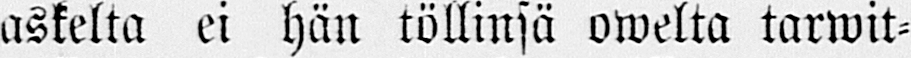askelta ei hän köliinsä owelta tarwit-
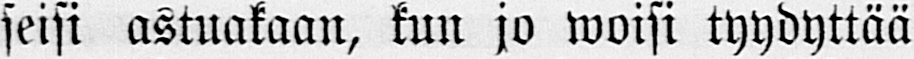seisi astuakaan, kun jo woisi tyydyttää
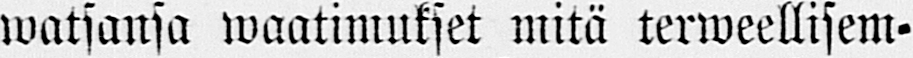watsansa waatimukset mitä terweellisem-
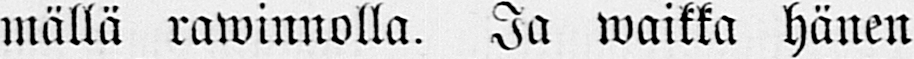mällä rawinnolla. Ja waikka hänen
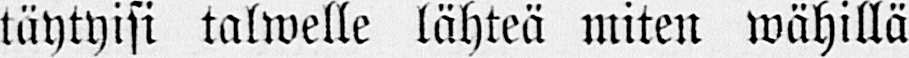täytyisi talwelle lähteä miten wähillä
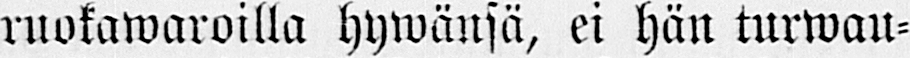ruokawaroilla hywänsä, ei hän turwau-
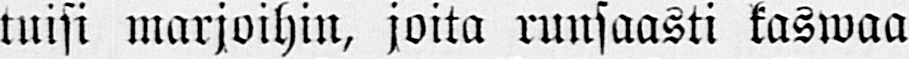tuisi marjoihin, joita runsaasti kaswaa
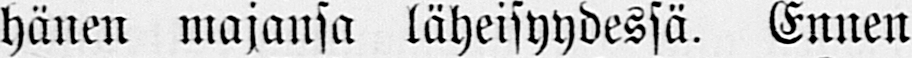hänen majansa läheisyydessä. Ennen
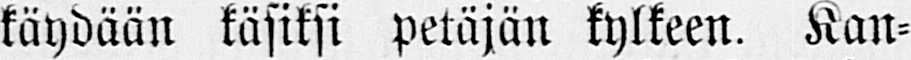käydään käsiksi petäjän kylkeen. Kan-
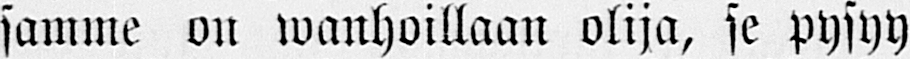samme on wanhoillaan olija, se pysyy
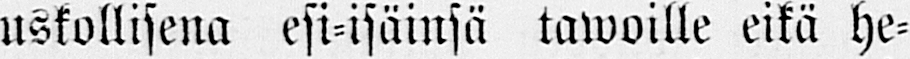uskollisena esi-isäinsä tawoille eikä he-
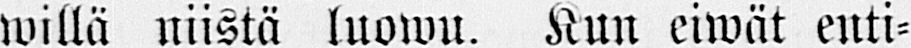willä niistä luowu. Kun eiwät enti-
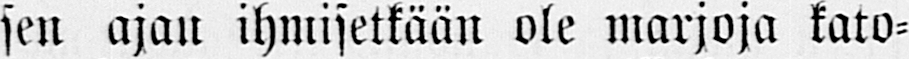sen ajan ihmisetkään ole marjoja kato-
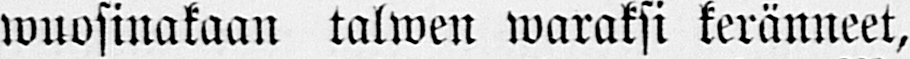wuosinakaan talwen waraksi keränneet,
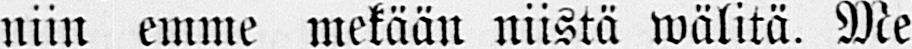niin emme mekään niistä wälitä. Me
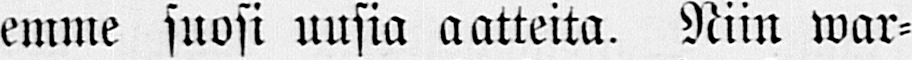emme suosi uusia aatteita. Niin war-
